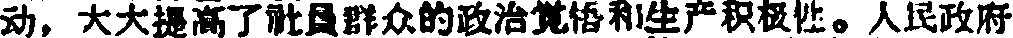动，大大提高了社員群众的政治覚悟和生产积极性。人民政府
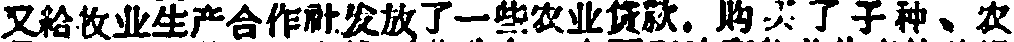又給牧业生产合作社发放了一些农业贷款，购买了子种、农
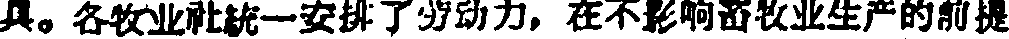具。各牧业社統一安排了劳动力，在不影响畜牧业生产的前提
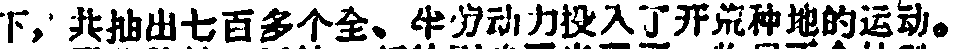下，共抽出七百多个全、半劳动力投入了开荒种地的运动。
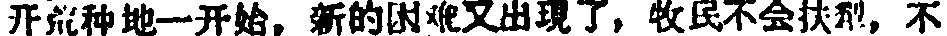开荒种地一开始，新的困難又出現了，牧民不会扶犁，不
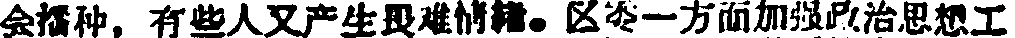会播种。有些人又产生畏难情绪。区委一方面加強政治思想工
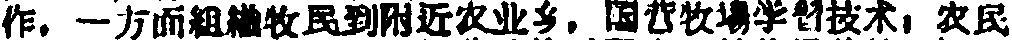作，一方面組織牧民到附近农业乡、国营牧場学習技术，农民
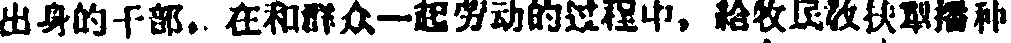出身的干部，在和群众一起劳动的过程中，給牧民教扶犁播种
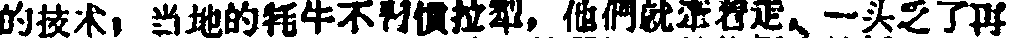的技术，当地的牦牛不習慣拉犁，他們就牵着走。一头乏了再
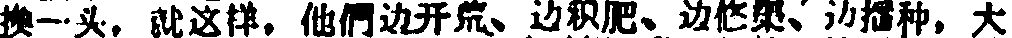换一头，就这样，他們边开荒、边积肥、边修渠、边播种，大
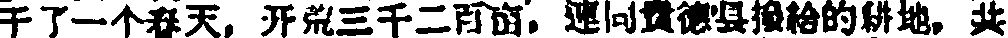干了一个春天，开荒三千二百亩，連同貴德县撥給的耕地，共
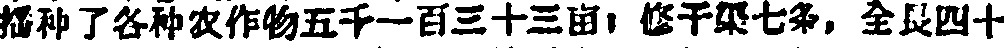播种了各种农作物五千一百三十三亩；修干渠七条，全長四十
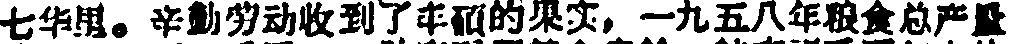七华里。辛勤劳动收到了丰硕的果实，一九五八年粮食总产量
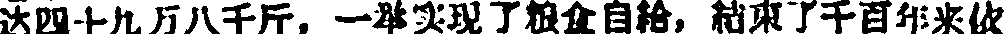达四十九万八千斤。一举实現了粮食自給，結束了千百年来依
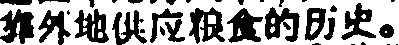靠外地供应粮食的历史。
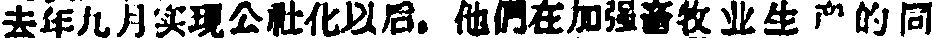去年九月实现公社化以后，他們在加強畜牧业生产的同
